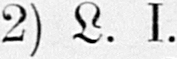2) L. I.
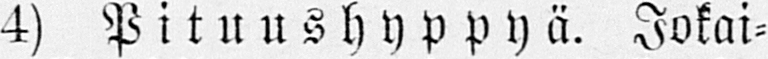4) Pituushyppyä. Jokai-
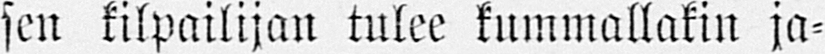sen kilpailijaa tulee kummallakin ja-
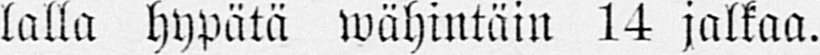lalla hypätä wähintäin 14 jalkaa.
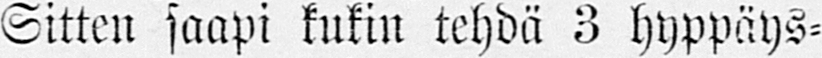Sitten saapi kukin tehdä 3 hyppäys-
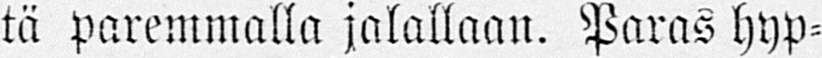tä paremmalla jalallaan. Paras hyp-
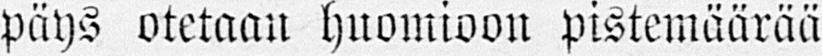päys otetaan huomioon pistemäärää
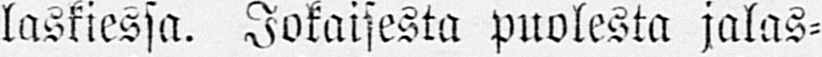laskiessa. Jokaisesta puolesta jalas-
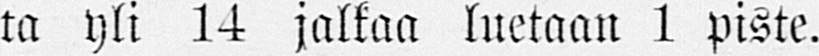ta yli 14 jalkaa luetaan 1 piste.
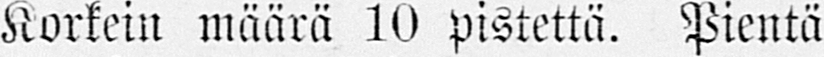Korkein määrä 10 pistettä. Pientä
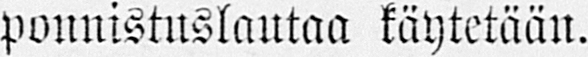ponnistuslautaa käytetään.
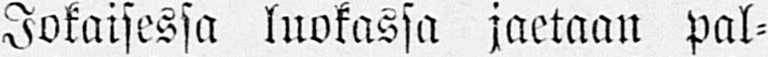Jokaisessa luokassa jaetaan pal-
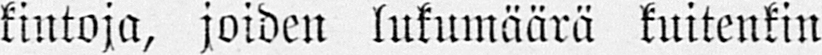kintoja, joiden lukumäärä kuitenkin
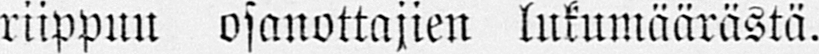riippuu osanottajien lukumäärästä.
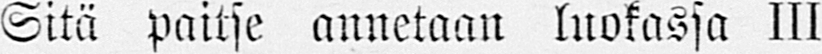Sitä paitse annetaan luokassa III
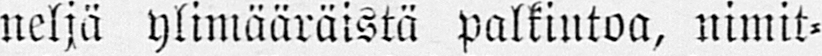neljä ylimääräistä palkintoa, nimit-
